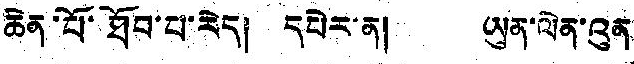ཆེན་པོ་ཐོབ་པ་རེད། དཔེར་ན། ཡུན་ལེན་འུན
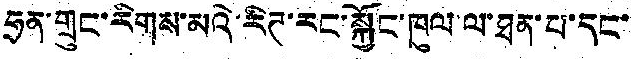ཧྲན་གྲུང་རིགས་མའི་རིཊ་རང་སྐྱོང་ཁུལ་ལ་ཐན་པ་དང་
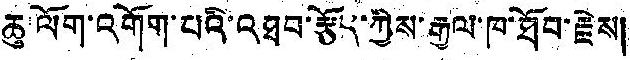ཆུ་ལོག་འགོག་པའི་འཐབ་རྩོད་ཀྱིས་རྒྱལ་ཁ་ཐོབ་རྗེས།
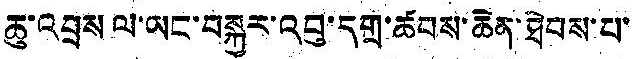ཆུ་འབྲས ལ་ཡང་བསྐྱར་འབུ་དགྲ་ཚབས་ཆེན་ཐེབས་པ་
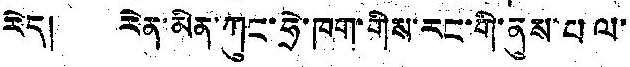རེད། རེན་མིན་ཀུང་ཧྲེ་ཁག་གིས་རང་གི་ནུས་པ ལ་
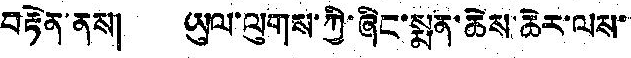བརྟེན་ནས། ཡུལ་ལུགས་ཀྱི་ཞིང་སྨན་ཆེས་ཆེར་ལས་་
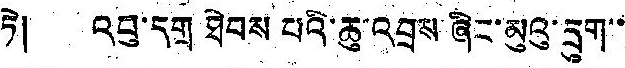ཏེ། འབུ་དགྲ ཐེབས པའི་ཆུ་འབྲས་ཞིང་མུའུ་དྲུག་་
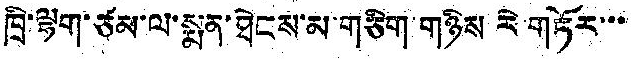ཁྲི་ལྷག་ཙམ་ལ་སྨན་ཐེངས་མ་གཅིག་གཉིས རེ་གཏོར་་་
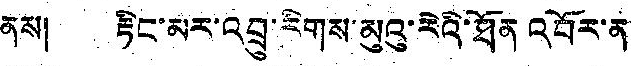ནས། རྟིང་མར་འབྲུ་རིགས་མུའུ་རེའི་ཐོན འབོར་ན
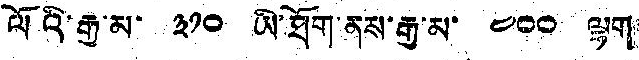ལོའི་རྒྱ་མ་ ༣༡༠ ཡི་ཐོག་ནས་རྒྱ་མ་ ༤༠༠ ལྷག
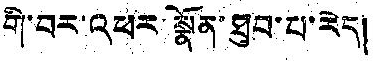གི་བར་འཕར་སྣོན་ཐུབ་པ་རེད།
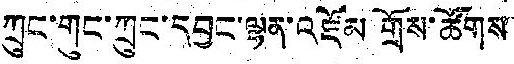ཀྲུང་གུང་ཀྲུང་དབྱང་ལྷན་འཛོམ གྲོས་ཚོགས་
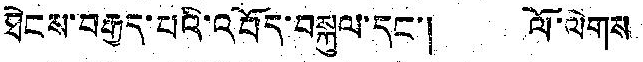ཐེངས་བརྒྱད་པའི་འབོད་བསྐུལ་དང་། ལོ་ལེགས
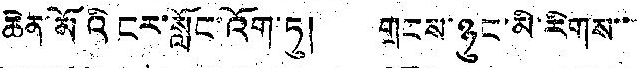ཆེན་མོའི ངར་སློང་འོག་ཏུ། གྲངས་ཉུང་མི་རིགས་་
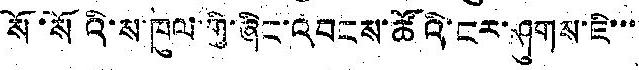སོ་སོའི་ས་ཁུལ་གྱི་ཞིང་འབངས་ཚོའི་ངར་ཤུགས་ཇི་་་
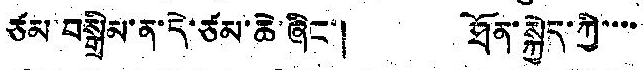ཙམ་བསྒྲིམ་ན་དེ་ཙམ་ཆེ་ཞིང་། ཐོན་སྐྱེད་ཀྱི་་་་
